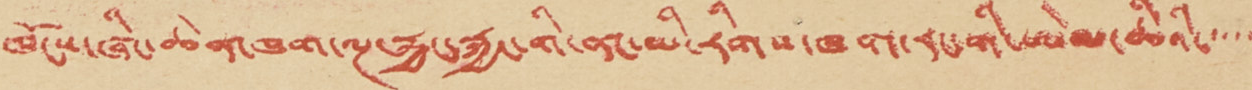ཁོངས་ཞིང་ཆེན་ཁག་ལྔ་རྐྱང་རྐྱང་གི་ནང་མི་རིགས་ཁག་རང་གི་ཨེམ་ཆིའི་་་་་
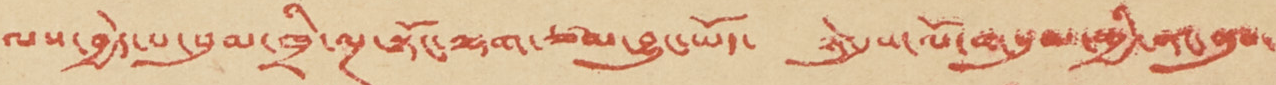ལས་བྱེད་པ་སུམ་ཁྲི་ལྔ་སྟོང་ལྷག་ཙམ་བྱུང་ཡོད་ ཉེ་དུས་ལོ་གསུམ་གྱི་ནང་ནུབ་
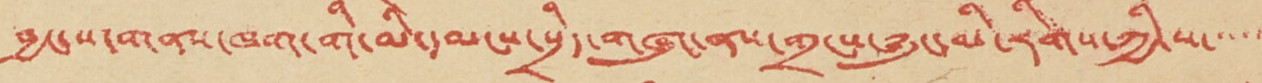བྱང་ས་གནས་ཁག་གི་མི་དམངས་སྲིད་གཞུང་ནས་གྲངས་ཉུང་མི་རིགས་ཀྱི་ས་་་་་
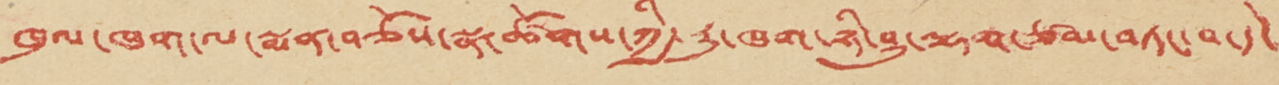ཁུལ་ཁག་ལ་སྨན་བཅོས་སྣ་ཚོགས་ཀྱི་རུ་ཁག་ཉི་ཤུ་ལྷག་ཙམ་བཏང་བ་དེ་
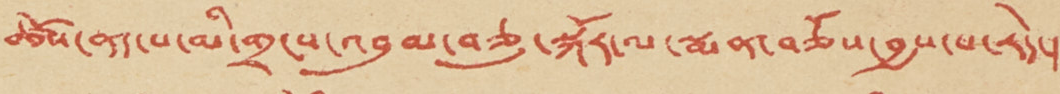ཚོས་ནད་པ་མི་གྲངས་འབུམ་བཅུ་སྐོར་ལ་སྨན་བཅོས་བྱས་པ་རེད་།
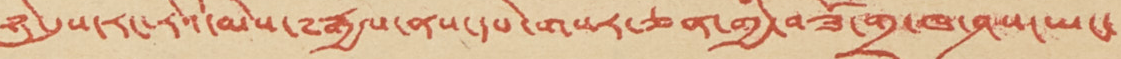• ཉེ་དུས་རང་རེའི་མེས་༸རྒྱལ་ནས་དཔེ་གསར་ཅན་གྱི་བཟོ་གྲྭ་ཁ་ཤས་ཡང་
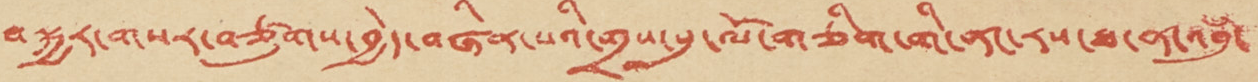བསྐྱར་གསར་བཙུགས་བྱེད་བཞིན་པའི་གྲས་སུ་ལོ་གཅིག་གི་ནང་རས་ཐ་ན་འབུཾ་
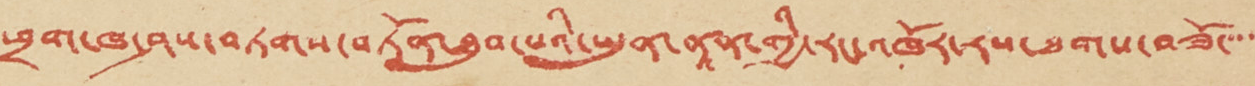ཕྲག་ཁ་ཤས་བཏགས་བཏོན་ཐུབ་པའི་ཡུན་ནཱན་གྱི་རང་འཁོར་རས་ཐགས་བཟོ་་་་
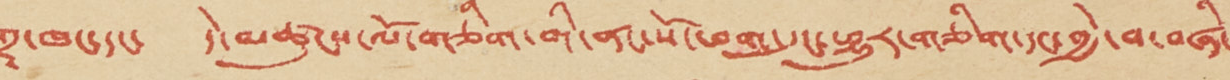གྲྭ་ཁང་དང་ དེ་མཚུངས་ལོ་གཅིག་གི་ནང་སོ་ཕག་དུང་ཕྱུར་གཅིག་དང་བྱེ་བ་བཞི་
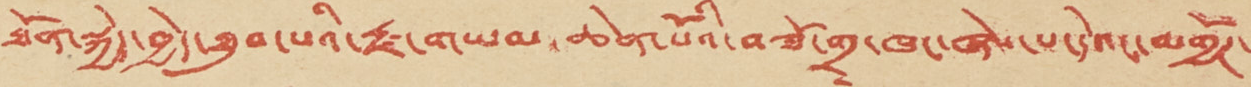ཐོན་སྐྱེད་བྱེད་ཐུབ་པའི་རྫ་གཡམ་ཆེན་པོའི་བཟོ་གྲྭ་ཁང་ཞེས་པ་དེའང་མགྱོཊ་
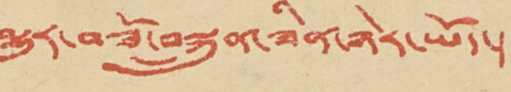མྱུར་བཟོ་བསྐྲུན་ཟིན་ཉེར་ཡོད་།
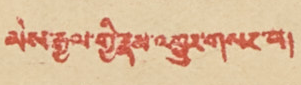མེས་རྒྱལ་གྱི་རྣམ་འགྱུར་གསར་པ།
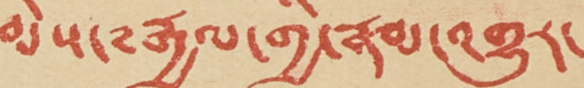མེས་༸རྒྱལ་གྱི་རྣམ་འགྱུར་
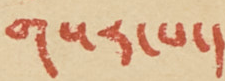གསར་པ་།
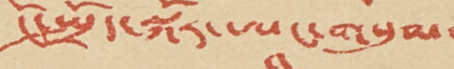ངོ་སྤྲོད་སྐོར་ཨང་གསུམ་པ་
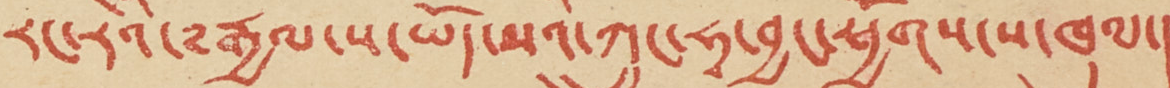རང་རེའི་༸རྒྱལ་ས་ཡོད་པའི་ཀྲུང་ཧྭ་བྱང་ཕྱོགས་ས་ཁུལ་།
